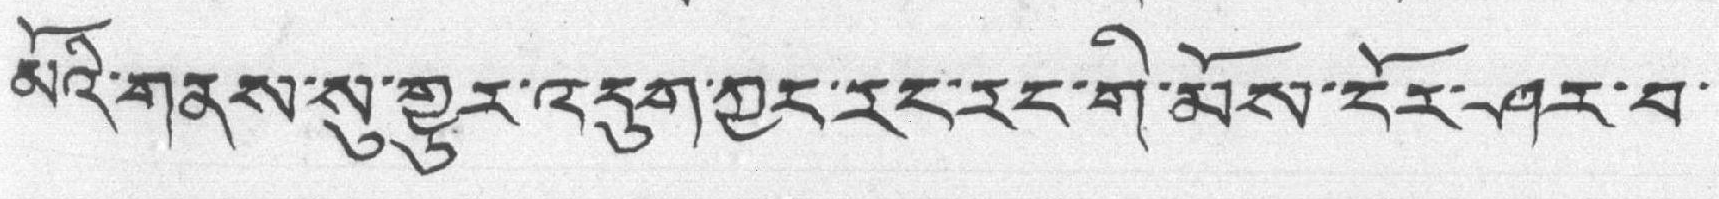མོའི་གནས་སུ་གྱུར་འདུག་ཀྱང་རང་རང་གི་མོས་ངོར་ཤར་བ་
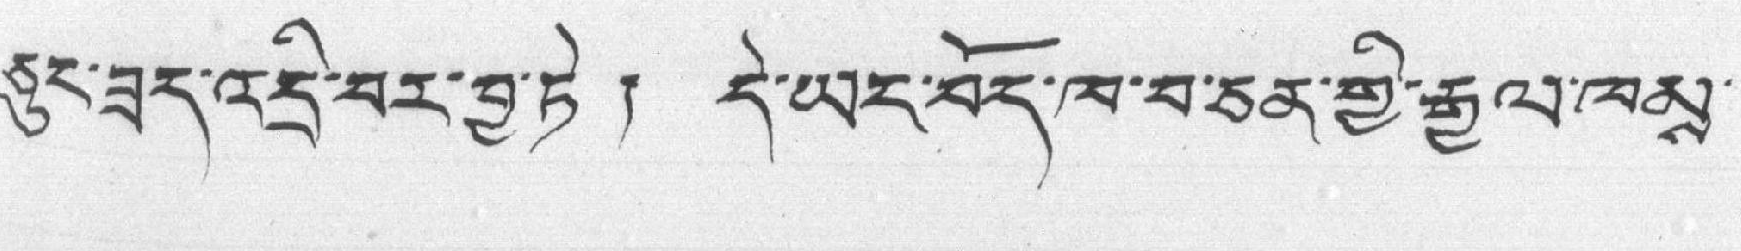ཅུང་ཟད་འདྲི་བར་བྱ་ཏེ ། དེ་ཡང་བོད་ཁ་བ་ཅན་གྱི་རྒྱལ་ཁམས་
